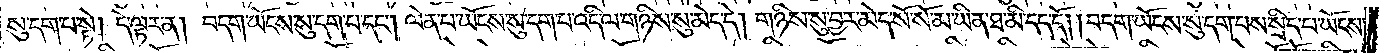སུ་དག་པ་སྟེ། དེ་ལྟར་ན། བདག་ཡོངས་སུ་དག་པ་དང༌། ལེན་པ་ཡོངས་སུ་དག་པ་འདི་ལ་གཉིས་སུ་མེད་དེ། གཉིས་སུ་བྱར་མེད་སོ་སོ་མ་ཡིན་ཐ་མི་དད་དོ། །བདག་ཡོངས་སུ་དག་པས་སྲིད་པ་ཡོངས་
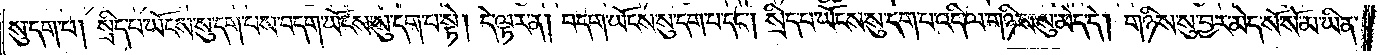སུ་དག་པ། སྲིད་པ་ཡོངས་སུ་དག་པས་བདག་ཡོངས་སུ་དག་པ་སྟེ། དེ་ལྟར་ན། བདག་ཡོངས་སུ་དག་པ་དང༌། སྲིད་པ་ཡོངས་སུ་དག་པ་འདི་ལ་གཉིས་སུ་མེད་དེ། གཉིས་སུ་བྱར་མེད་སོ་སོ་མ་ཡིན་
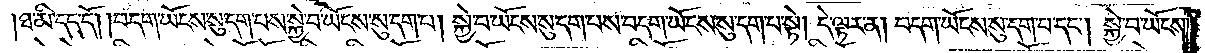ཐ་མི་དད་དོ། །བདག་ཡོངས་སུ་དག་པས་སྐྱེ་བ་ཡོངས་སུ་དག་པ། སྐྱེ་བ་ཡོངས་སུ་དག་པས་བདག་ཡོངས་སུ་དག་པ་སྟེ། དེ་ལྟར་ན། བདག་ཡོངས་སུ་དག་པ་དང༌། སྐྱེ་བ་ཡོངས་
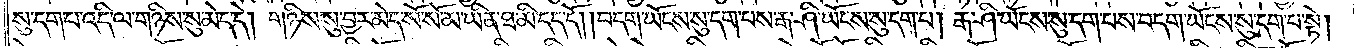སུ་དག་པ་འདི་ལ་གཉིས་སུ་མེད་དེ། གཉིས་སུ་བྱར་མེད་སོ་སོ་མ་ཡིན་ཐ་མི་དད་དོ། །བདག་ཡོངས་སུ་དག་པས་རྒ་ཤི་ཡོངས་སུ་དག་པ། རྒ་ཤི་ཡོངས་སུ་དག་པས་བདག་ཡོངས་སུ་དག་པ་སྟེ།
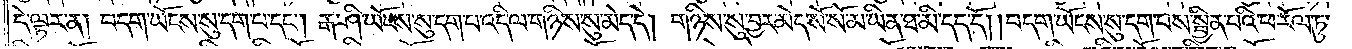དེ་ལྟར་ན། བདག་ཡོངས་སུ་དག་པ་དང༌། རྒ་ཤི་ཡོངས་སུ་དག་པ་འདི་ལ་གཉིས་སུ་མེད་དེ། གཉིས་སུ་བྱར་མེད་སོ་སོ་མ་ཡིན་ཐ་མི་དད་དོ། །བདག་ཡོངས་སུ་དག་པས་སྦྱིན་པའི་ཕ་རོལ་ཏུ་
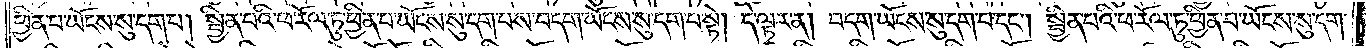ཕྱིན་པ་ཡོངས་སུ་དག་པ། སྦྱིན་པའི་ཕ་རོལ་ཏུ་ཕྱིན་པ་ཡོངས་སུ་དག་པས་བདག་ཡོངས་སུ་དག་པ་སྟེ། དེ་ལྟར་ན། བདག་ཡོངས་སུ་དག་པ་དང༌། སྦྱིན་པའི་ཕ་རོལ་ཏུ་ཕྱིན་པ་ཡོངས་སུ་དག་
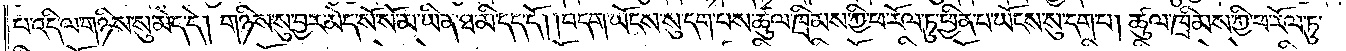པ་འདི་ལ་གཉིས་སུ་མེད་དེ། གཉིས་སུ་བྱར་མེད་སོ་སོ་མ་ཡིན་ཐ་མི་དད་དོ། །བདག་ཡོངས་སུ་དག་པས་ཚུལ་ཁྲིམས་ཀྱི་ཕ་རོལ་ཏུ་ཕྱིན་པ་ཡོངས་སུ་དག་པ། ཚུལ་ཁྲིམས་ཀྱི་ཕ་རོལ་ཏུ་
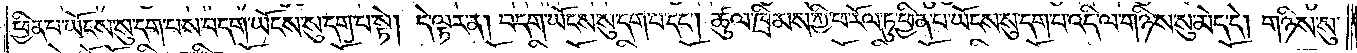ཕྱིན་པ་ཡོངས་སུ་དག་པས་བདག་ཡོངས་སུ་དག་པ་སྟེ། དེ་ལྟར་ན། བདག་ཡོངས་སུ་དག་པ་དང༌། ཚུལ་ཁྲིམས་ཀྱི་ཕ་རོལ་ཏུ་ཕྱིན་པ་ཡོངས་སུ་དག་པ་འདི་ལ་གཉིས་སུ་མེད་དེ། གཉིས་སུ་
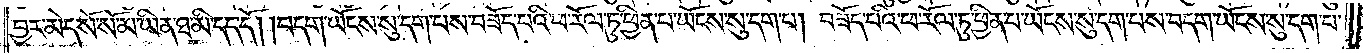བྱར་མེད་སོ་སོ་མ་ཡིན་ཐ་མི་དད་དོ། །བདག་ཡོངས་སུ་དག་པས་བཟོད་པའི་ཕ་རོལ་ཏུ་ཕྱིན་པ་ཡོངས་སུ་དག་པ། བཟོད་པའི་ཕ་རོལ་ཏུ་ཕྱིན་པ་ཡོངས་སུ་དག་པས་བདག་ཡོངས་སུ་དག་པ་
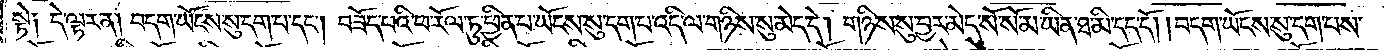སྟེ། དེ་ལྟར་ན། བདག་ཡོངས་སུ་དག་པ་དང༌། བཟོད་པའི་ཕ་རོལ་ཏུ་ཕྱིན་པ་ཡོངས་སུ་དག་པ་འདི་ལ་གཉིས་སུ་མེད་དེ། གཉིས་སུ་བྱར་མེད་སོ་སོ་མ་ཡིན་ཐ་མི་དད་དོ། །བདག་ཡོངས་སུ་དག་པས་
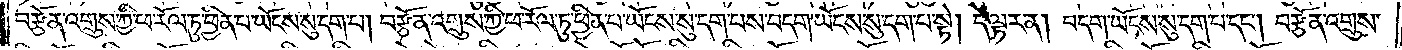བརྩོན་འགྲུས་ཀྱི་ཕ་རོལ་ཏུ་ཕྱིན་པ་ཡོངས་སུ་དག་པ། བརྩོན་འགྲུས་ཀྱི་ཕ་རོལ་ཏུ་ཕྱིན་པ་ཡོངས་སུ་དག་པས་བདག་ཡོངས་སུ་དག་པ་སྟེ། དེ་ལྟར་ན། བདག་ཡོངས་སུ་དག་པ་དང༌། བརྩོན་འགྲུས་
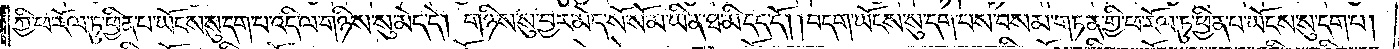ཀྱི་ཕ་རོལ་ཏུ་ཕྱིན་པ་ཡོངས་སུ་དག་པ་འདི་ལ་གཉིས་སུ་མེད་དེ། གཉིས་སུ་བྱར་མེད་སོ་སོ་མ་ཡིན་ཐ་མི་དད་དོ། །བདག་ཡོངས་སུ་དག་པས་བསམ་གཏན་གྱི་ཕ་རོལ་ཏུ་ཕྱིན་པ་ཡོངས་སུ་དག་པ།
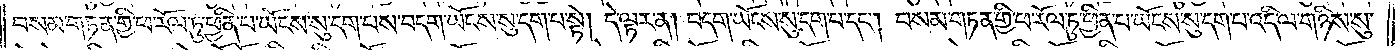བསམ་གཏན་གྱི་ཕ་རོལ་ཏུ་ཕྱིན་པ་ཡོངས་སུ་དག་པས་བདག་ཡོངས་སུ་དག་པ་སྟེ། དེ་ལྟར་ན། བདག་ཡོངས་སུ་དག་པ་དང༌། བསམ་གཏན་གྱི་ཕ་རོལ་ཏུ་ཕྱིན་པ་ཡོངས་སུ་དག་པ་འདི་ལ་གཉིས་སུ་
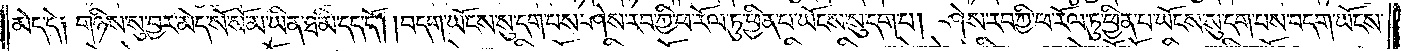མེད་དེ༑ གཉིས་སུ་བྱར་མེད་སོ་སོ་མ་ཡིན་ཐ་མི་དད་དོ། །བདག་ཡོངས་སུ་དག་པས་ཤེས་རབ་ཀྱི་ཕ་རོལ་ཏུ་ཕྱིན་པ་ཡོངས་སུ་དག་པ། ཤེས་རབ་ཀྱི་ཕ་རོལ་ཏུ་ཕྱིན་པ་ཡོངས་སུ་དག་པས་བདག་ཡོངས་
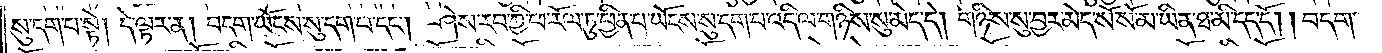སུ་དག་པ་སྟེ། དེ་ལྟར་ན། བདག་ཡོངས་སུ་དག་པ་དང༌། ཤེས་རབ་ཀྱི་ཕ་རོལ་ཏུ་ཕྱིན་པ་ཡོངས་སུ་དག་པ་འདི་ལ་གཉིས་སུ་མེད་དེ། གཉིས་སུ་བྱར་མེད་སོ་སོ་མ་ཡིན་ཐ་མི་དད་དོ། །བདག་
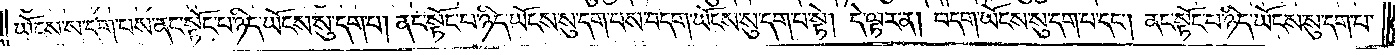ཡོངས་སུ་དག་པས་ནང་སྟོང་པ་ཉིད་ཡོངས་སུ་དག་པ། ནང་སྟོང་པ་ཉིད་ཡོངས་སུ་དག་པས་བདག་ཡོངས་སུ་དག་པ་སྟེ། དེ་ལྟར་ན། བདག་ཡོངས་སུ་དག་པ་དང༌། ནང་སྟོང་པ་ཉིད་ཡོངས་སུ་དག་པ་
